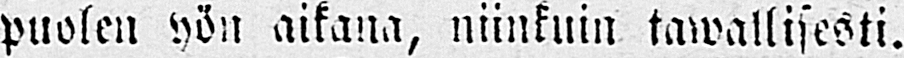puolen yön aikana, niinkuin tawallisesti.
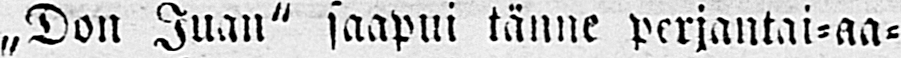„Don Juan" saapui tänne perjantai-aa-
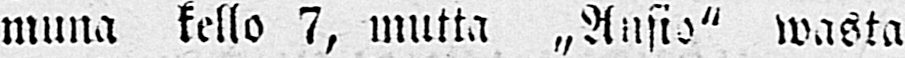muna kello 7, mutta „Ansio" wasta
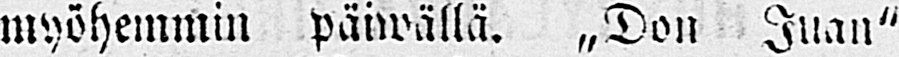myöhemmin päiwällä. „Don Juan"
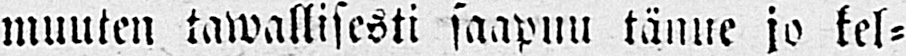muuten tawallisesti saapuu tännie jo kel-
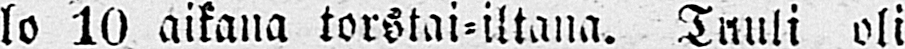lo 10 aikana torstai-iltana. Tuuli oli
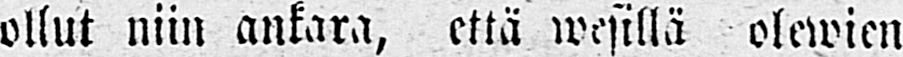ollut niin ankara, että wesillä olewien
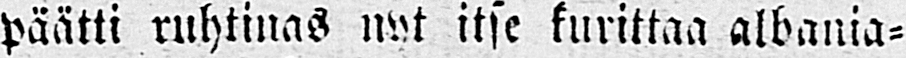päätti ruhtinas nyt itse kurittaa albania-
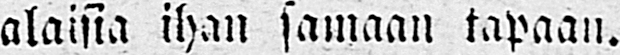alaisia ihan samaan tapaan.
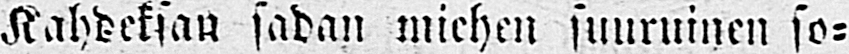Kahdeksan sadan miehen suuruinen so-
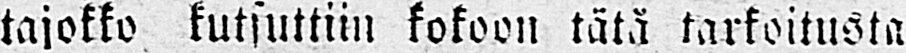tajokko kutsuttiin kokoon tätä tarkoitusta
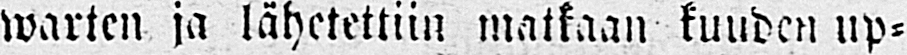warten ja lähetettiin matkaan kuuden up-
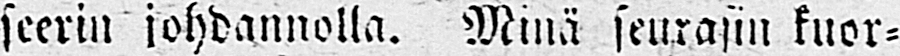seerin johdannolla. Minä seurasin kuor-
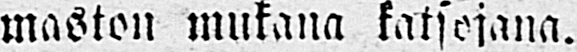maston mukana katsojana.
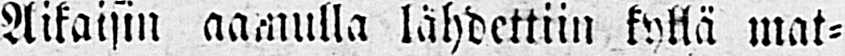Aikaisin aamulla lähdettiin kyllä mat-
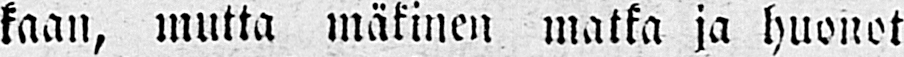kaan, mutta mäkinen matka ja huonot
